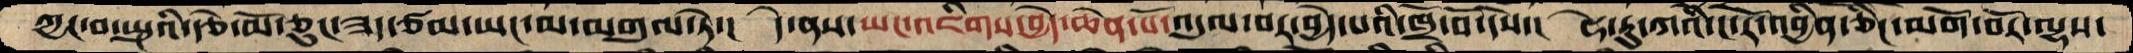ཀྱང་བ་སྤུའི་རྩེ་མོ་ཅུང་ཟད་ཙམ་ཡང་མ་མགུལ་ཏེ་།  དེ་ནས་ཡང་འཇིགས་བྱེད་ཆེན་པོ་འདུལ་བར་བྱེད་པའི་ཁྲོ་བོ་དསེ་།  ཧེ་རུ་ཀའི་ང་རོ་འབྱིན་ཅིང་མགོ་བོར་ལྷས་
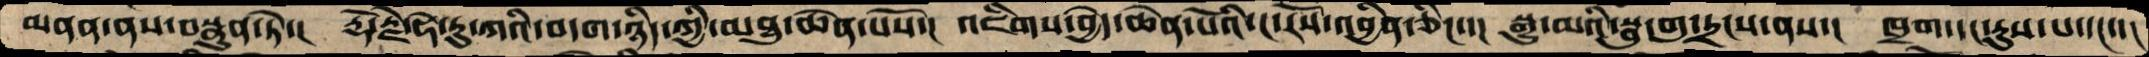མནན་ནས་བསྣུན་ཏེ་། རྡོ་རྗེ་ཧེ་རུ་ཀའི་བདག་ཉིད་ཀྱི་མཐུ་ཆེན་པོས་།  འཇིགས་བྱེད་ཆེན་པོའི་ང་རོས་འབྱིན་ཅིང་་། སྒྱུ་མའི་སྦུ་གུ་དྲངས་ནས་།  ཁྲག་དང་རུས་པ་དང་་།
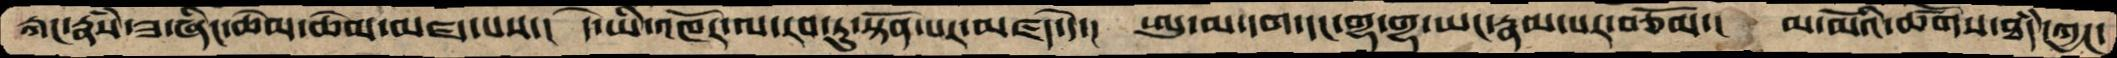རྐང་རྣཾས་ཟ་ཞིང་ཆེམ་ཆེམ་མཛད་པས་།  དེ་ཡི་འཁོར་ལ་རབ་ཏུ་སྟོན་པར་མཛད་དེ་།  ཨུ་མ་དག་དང་གྷ་གྷ་ཡང་རྣམ་པར་བཅོམ་།  མ་མོའི་ཚོགས་ཐདཾ་ཀྱང་
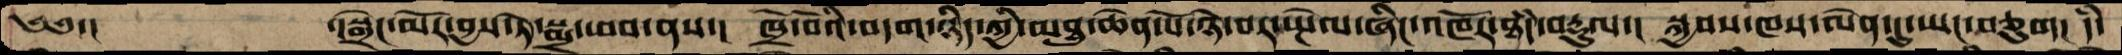༄༅་།        ་།སྒྲེང་མོར་བྱས་ཏེ་སྨྲ་ཕབ་ནས་།  ཁྲོ་བོའི་བདག་ཉིད་ཀྱི་མཐུ་ཆེན་པོ་ཉེ་བར་སྤེལ་ཞིང་འཁོར་ཐདཾ་བརྡུལ་།  སྐྱབས་ཁས་ལེན་དུ་ཡང་བཅུག།  དཾ་
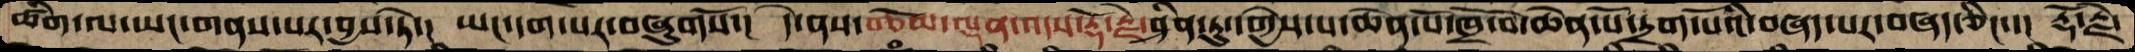ཚིག་ལ་ཡང་གནས་པར་བྱས་ཏེ་།  ཡང་དག་པར་བཞུགསོ་།  དེ་ནས་བཅོམ་ལྡན་འདས་རྡོ་རྗེ་ཤིན་ཏུ་དགྱེས་པ་ཆེན་པོ་ཁྲོ་བོ་ཆེན་པོ་དྲག་པོའི་བཞད་པར་བཞད་ཅིང་་།  རྡོ་རྗེ་
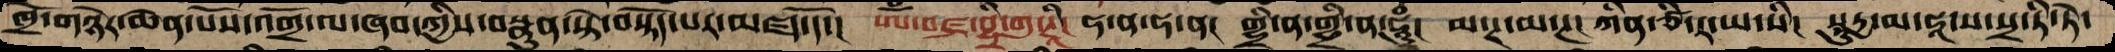ཁྲོ་གཉེར་ཆེན་པོས་འགྲོ་ལ་ཞབ་ཀྱིས་བསྣུན་སྟེ་བསྟོད་པར་མཛད་དོ་།  ཨོཾ་བཛྲ་བྷཱི་གུ་ཊཱི།  ཧ་ན་ཧ་ན།  གྷྲི་ན་གྷྲི་ན་ཧཱུཾ།  མ་ཊ་མ་ཊ།  ཀིན་ཙི་ར་ཡ་སི།  སཱུརྱ་མ་ཧཱ་ས་སྲ་ཏི་ཏེ་
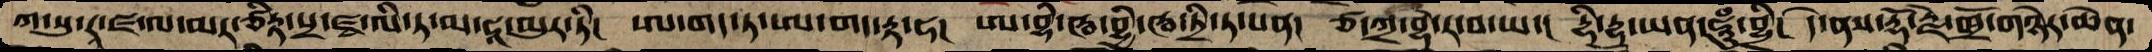ཀ་སུ་རཱ་ཛ་ལ་མར་ཙིཏྟ་པྲ་ཛྭ་ལི་ཏ་མ་ཧཱ་མུར་ཏི།  ཨ་གད་ཏ་ཨ་གད་ཏྟ་ཧ།  ཨ་བྷི་ཝ་བྷྱི་ཝ་ཏྲི་ཏ་པན།  ཙ་ཀྲ་བྷ་ར་བ་ཡ།  དྷི་དྷ་ཡན་ཧཱུཾ་བྷྲི།  དེ་ནས་རྡོ་རྗེ་ཁྲོ་གཉེར་ཆེན་
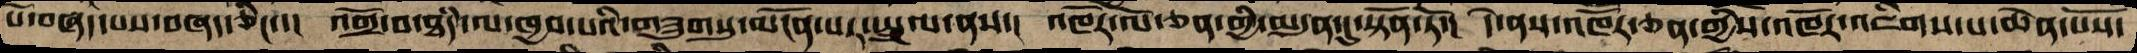པོ་བཞད་པས་བཞད་ཅིང་་།  འགྲོ་བ་ཐཾད་ལ་ཁྱབ་པའི་གཟུགསུ་མངོན་པར་སྤྲུལ་ནས་།  འཁོར་ལོ་ཅན་གྱི་མདུན་དུ་སྟོན་ཏོ་།  དེ་ནས་འཁོར་ཅན་གྱིས་འཁོར་འཇིགས་པ་ཆེན་པོས་
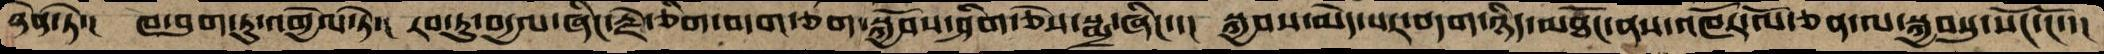ཉེན་ཏེ་།  ཁ་བུག་ཏུ་འགྱེལ་ཏེ་།  རབ་ཏུ་བདྱལ་ཞིང་རྗེ་ཅིག་བདག་ཅག་སྐྱོབས་ཤིག་ཅེས་སྨྲ་ཞིང་་།  སྐྱབས་མེད་པར་བདག་ཉིད་མཐོང་ནས་འཁོར་ལོ་ཅན་ལ་སྐྱབསུ་སོང་ངོ་་།
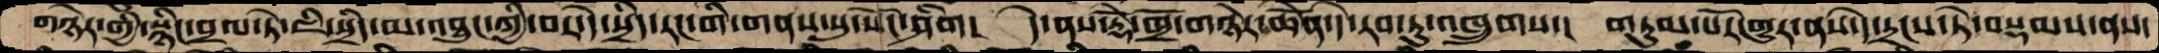གཉེར་གྱི་སྙིང་བྲལ་ཏེ་ཇི་སྲིད་མ་འཐུང་ཀྱི་བར་་ེེ་སྲིད་རང་གི་གནས་སུ་སོང་ཤིག།  དེ་ནས་རྡོེ་ཁྲོ་གཉེར་ཆེོན་དེ་རབ་ཏུ་འཁྲུགས་།  གཏུམ་པོར་གྱུར་ནས་དེ་དྲངས་ཏེ་བསྡམས་ནས་
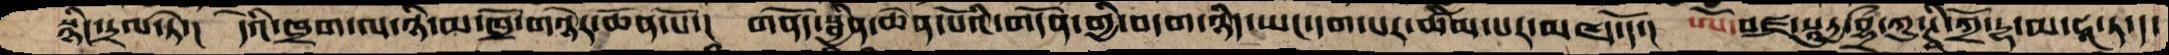སྙིང་དྲལ་ཏེ་།  དེའི་ཁྲག་ལ་ཉི་མ་ཁྲོ་གཉེར་ཆེན་པོ་།  གནོད་སྦྱིན་ཆེན་པོའི་གདོན་གྱི་བདག་ཉིད་ཡང་དག་པར་ཚིམ་པར་མཛད་དོ་།  ཨོཾ་བཛྲ་སཱུརྱ་བྷྲྀ་ཀུ་ཊྭི་ཀྲོ་ཌྷ་མ་ཧཱ་ཏ་ད་
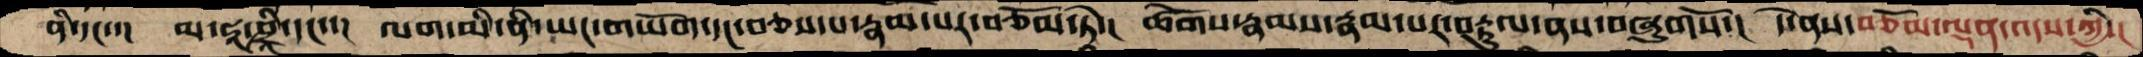ནི་དང་་།  མ་ཧཱ་ཤྲཱཱ་ི་དང་་།  ལག་མི་ནི་ཡང་གཡོག་དང་བཅས་པ་རྣམ་པར་བཅོམ་ཏེ་།  ཚོགས་རྣམས་རྣམ་པར་བརྟུལ་ནས་བཞུགསོ་།  དེ་ནས་བཅོམ་ལྡན་འདས་ཀྱི་།
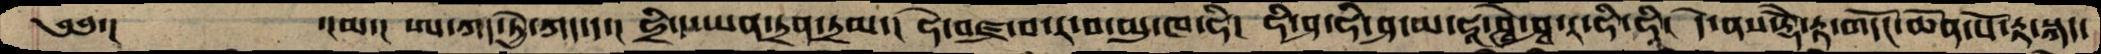༄༅་།    ་།མ་། ཨ་ཀད་ཏྱེ་ཀད་ད་།  ཧྲི་ད་ཡན་ཏྲན་ཏྲམ།  ཧེ་བཛྲ་བ་ར་བ་མུ་ཁ་ཧི།  ཧི་ཤ་ཧི་ཤ་མ་ཧཱ་ཤྭེ་ཤྭ་ར་ཧི་ཧཱི།  དེ་ནས་རྡོེ་རྟ་གདོང་ཆེན་པོ་རྟ་སྐད་
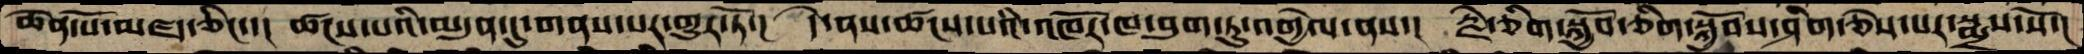ཆེན་པོ་མཛད་ཅིང་་།  ཚངས་པའི་མདུན་དུ་གནས་པར་གྱུར་ཏོ་།  དེ་ནས་ཚངས་པའི་འཁོར་ཁ་བུག་ཏུ་འགྱེལ་ནས་།  རྗེ་ཅིག་སྐྱོབ་ཅིག་སྐྱོབས་ཤིག་ཅེས་པར་སྨྲས་སོ་།
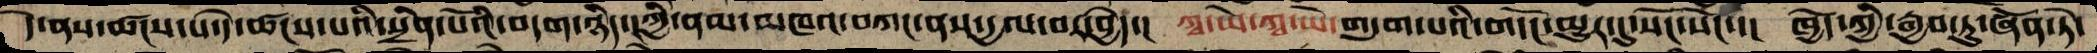དེ་ནས་ཚངས་པ་དེ་ཚངས་པའི་སྲིན་པོའི་བདག་ཉིད་ཀྱི་ནམ་མཁའ་བཀང་ནས་དྱལ་བར་བྱེད་།  ཀྭ་ཡེ་ཀྭ་ཡེ་གདུག་པའི་གདོང་མྱུར་དུ་སོང་སོང་་།  ཁྱེད་ཀྱི་རྒྱབ་ཏུ་ཞོན་ཏེ་
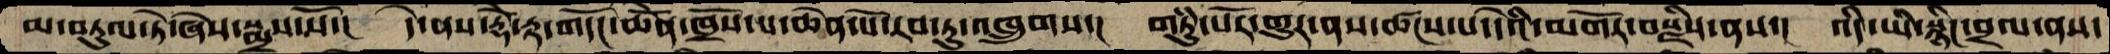མ་བཏུལ་ཏེ་ཞེས་སྨྲས་སོ་།  དེ་ནས་རྡོེ་རྟ་གདོང་ཆེནོ་ཁྲོས་པ་ཆེན་པོ་རབ་ཏུ་འཁྲུགས་།  གཏུཾ་པོར་གྱུར་ནས་ཚངས་པ་དེའི་མགོར་བསྫིས་ནས་། འདི་ཡི་སྙིང་བྲལ་ནས་
